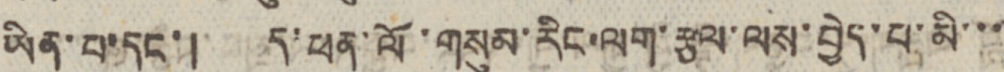ཡིན་པ་དང་། ད་ཕན་ལོ་གསུམ་རིང་ལག་རྩལ་ལས་བྱེད་པ་མི་་་
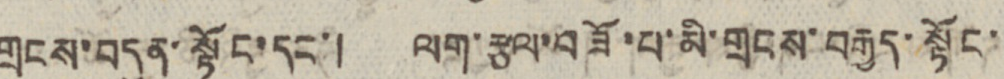གྲངས་བདུན་སྟོང་དང་། ལག་རྩལ་བཟོ་པ་མི་གྲངས་བརྒྱད་སྟོང་
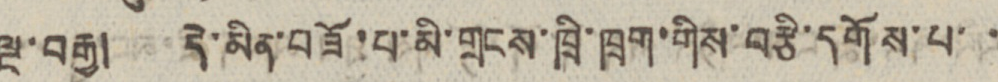ལྔ་བརྒྱ། དེ་མིན་བཟོ་པ་མི་གྲངས་ཁྲི་ཁྲག་གིས་བརྩི་དགོས་པ་་
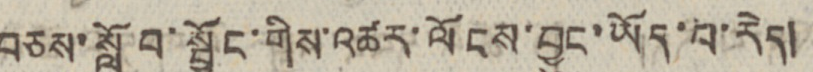བཅས་སློབ་སྦྱོང་གིས་འཚར་ལོངས་བྱུང་ཡོད་པ་རེད།
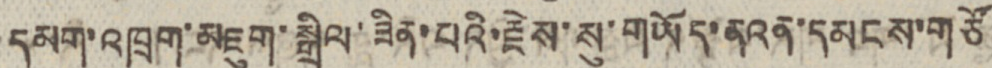དམག་འཁྲུག་མཇུག་སྒྲིལ་ཟིན་པའི་རྗེས་སུ་གཡོད་ནའན་དམངས་གཙོ
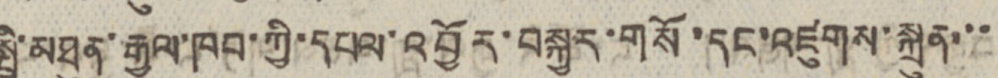སྤྱི་མཐུན་རྒྱལ་ཁབ་ཀྱི་དཔལ་འབྱོར་བསྐྱར་གསོ་དང་འཛུགས་སྐྲུན་་་
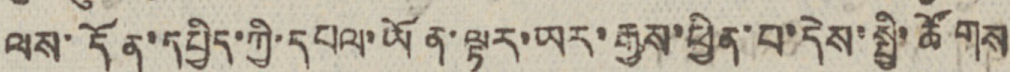ལས་དོན་དཔྱིད་ཀྱི་དཔལ་ཡོན་ལྟར་ཡར་རྒྱས་ཕྱིན་པ་དེས་སྤྱི་ཚོགས
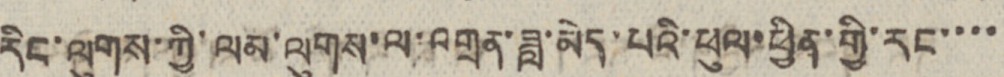རིང་ལུགས་ཀྱི་ལམ་ལུགས་ལ་འགྲན་ཟླ་མེད་པའི་ཕུལ་ཕྱིན་ཀྱི་རང་་་་
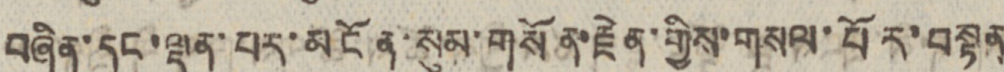བཞིན་དང་ལྡན་པར་མངོན་སུམ་གསོན་རྗེན་གྱིས་གསལ་པོར་བསྟན
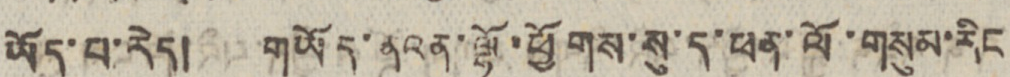ཡོད་པ་རེད། གཡོད་ནའན་ལྷོ་ཕྱོགས་སུ་ད་ཕན་ལོ་གསུམ་རིང
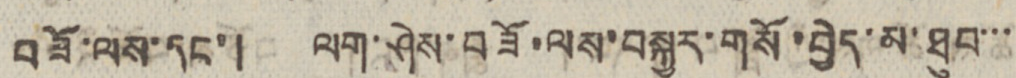བཟོ་ལས་དང་། ལག་ཤེས་བཟོ་ལས་བསྐྱར་གསོ་བྱེད་མ་ཐུབ་་་
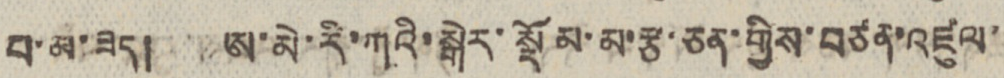བ་མ་ཟད། ཨ་མེ་རི་ཀའི་སྒེར་སྡོམ་མ་རྩ་ཅན་གྱིས་བཙན་འཛུལ་
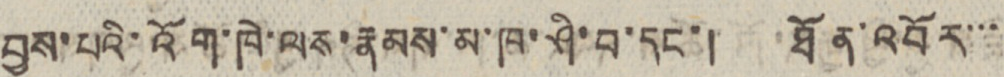བྱས་པའི་འོག་ཁེ་ལས་རྣམས་མ་ཁ་ཤི་བ་དང་། ཐོན་འབོར་་་
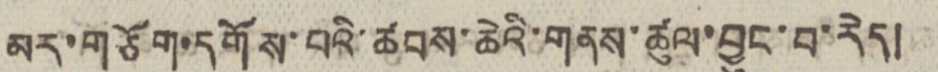མར་གཅོག་དགོས་པའི་ཚབས་ཆེའི་གནས་ཚུལ་བྱུང་བ་རེད།
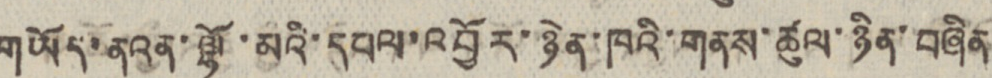གཡོད་ནའན་ལྷོ་མའི་དཔལ་འབྱོར་ཉེན་ཁའི་གནས་ཚུལ་ཉིན་བཞིན
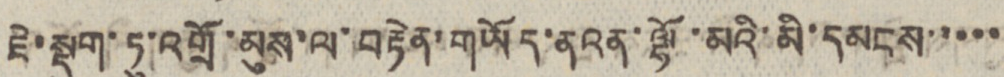ཇེ་སྡུག་ཏུ་འགྲོ་མུས་ལ་བརྟེན་གཡོད་ནའན་ལྷོ་མའི་མི་དམངས་་་་་
